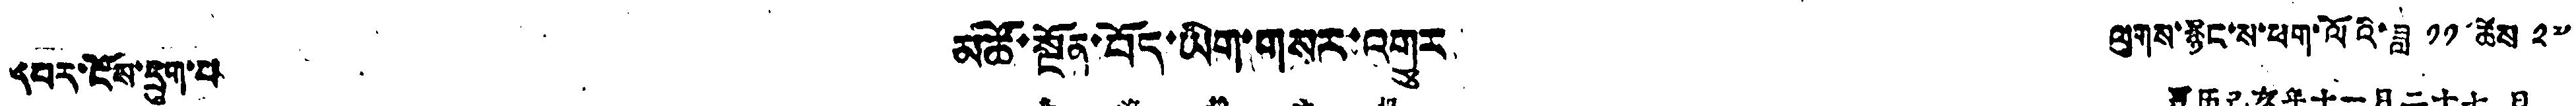དཔར་ངོས་དྲུག་བ མཚོ་སྔོན་བོད་ཡིག་གསར་འགྱུར ལུགས་རྙིང་ས་ཕག་ལོའི་ཟླ ༡༡ ཚེས ༢༧
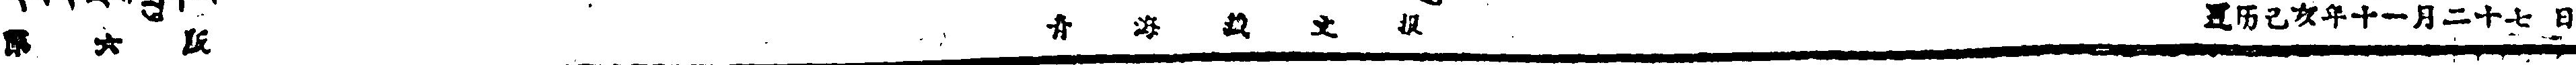第 六 版 青 海 藏 文 报 夏历己亥年十一月二十七日
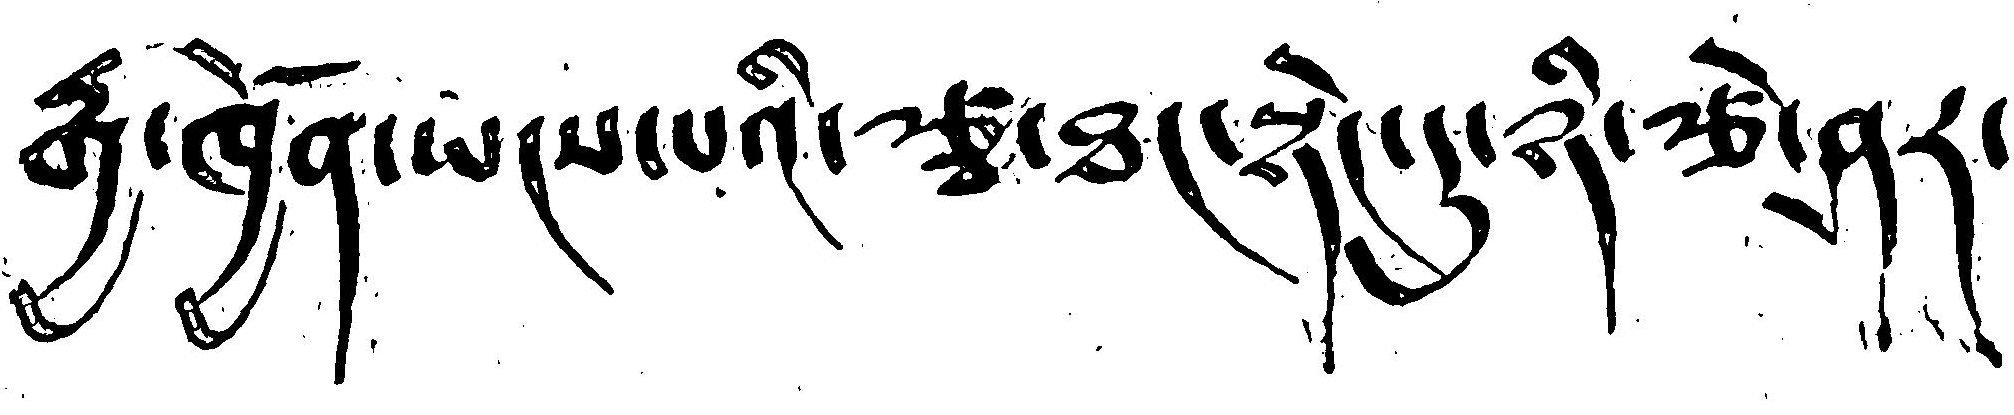རྒྱ་ཁྱོན་ཡངས་པའི་རྩྭ་ཐང་སྟེང་དུ་ཉི་རྩེ་ཤར་
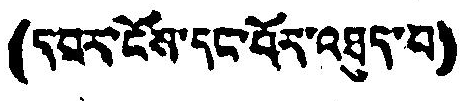(དཔར་ངོས་དང་པོར་འཐུད་པ)
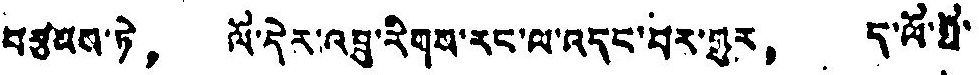བརྩམས་ཏེ， ལོ་དེར་འབྲུ་རིགས་རང་ལ་འདང་བར་གྱུར， ད་ལོ་སོ་
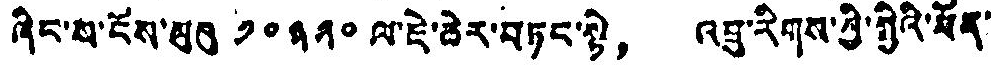ཞིང་པ་ངོས་མུའུ ༡༠༣༢༠ ལ་ཇེ་ཆེར་བཏང་སྟེ， འབྲུ་རིགས་ཀྱི་སྤྱིའི་ཐོན་
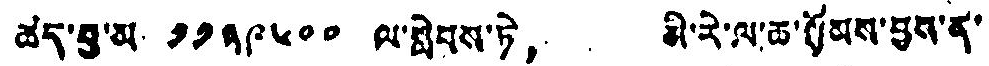ཚད་བྱ་མ་ ༡༡༣༩༦༠༠ ལ་སླེབས་ཏེ， མི་རེ་ལ་ཆ་སོམས་བྱས་ན་
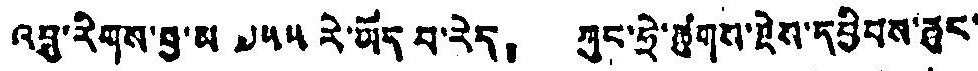འབྲུ་རིགས་བྱ་མ ༧༥༥ རེ་ཡོད པ་རེད， ཀུང་ཧྲེ་ཚུགས་རྗེས་དབྱིབས་ཆུང་
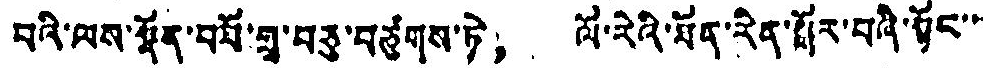བའི་ལས་སྣོན་བཔོ་གྲྭ་བཅུ་བཙུགས་ཏེ， ལོ་རེའི་ཐོན་རིན་སྒོར་བའི་སྟོང་་་་
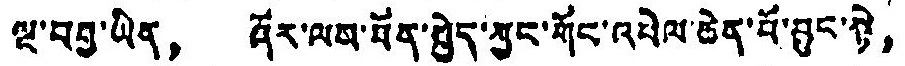ལྔ་བབྱ་ཡིན， ཞོར་ལས་བོན་བྱེད་ཀྱང་གོང་འཕེལ་ཆེན་པོ་བྱུང་སྟེ，
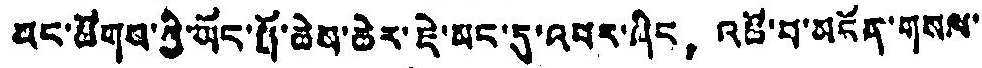བང་ཚོགས་ཀྱི་ཡོང་པོ་ཆེས་ཆེར་ཇེ་མང་དུ་འབར་ཞིང， འཛོ་བ་མངོན་གསལ་
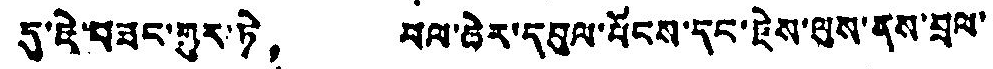དུ་ཇེ་བཟང་གྱུར་ཏེ， ཕལ་ཆེར་དབུལ་པོངས་དང་རྗེས་ལུས་ནས་བྲལ་
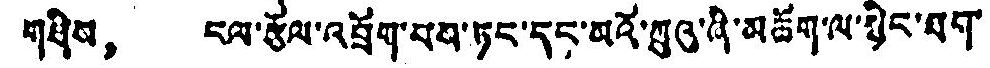གཤིས， ངལ་རྩོལ་འབྲོག་པས་ཏང་དང་ཡའོ་ཀྲུའུ་ཞི་མཆོག་ལ་སྙིང་ཐབ་་
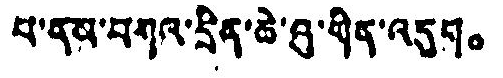པ་ནམ་བཀའ་དྲིན་ཆེ་ཞུ་གིན་འདུག。
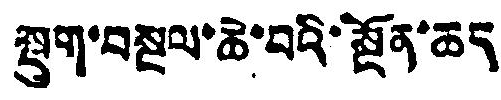སྡུག་བསྔལ་ཆེ་བའི་སྔོན་ཆད
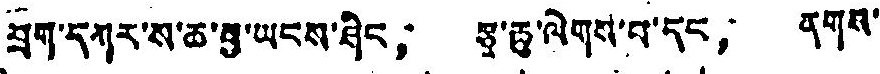བྲག་དཀར་ས་ཆ་ཕྱུ་ཡངས་ཤིང， རྩྭ་ཆུ་ལེགས་པ་དང， ནགས་
